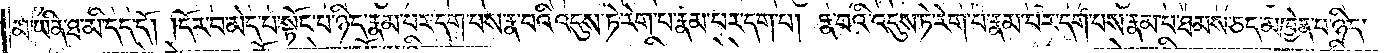མ་ཡིན་ཐ་མི་དད་དོ། །དོར་བ་མེད་པ་སྟོང་པ་ཉིད་རྣམ་པར་དག་པས་རྣ་བའི་འདུས་ཏེ་རེག་པ་རྣམ་པར་དག་པ། རྣ་བའི་འདུས་ཏེ་རེག་པ་རྣམ་པར་དག་པས་རྣམ་པ་ཐམས་ཅད་མཁྱེན་པ་ཉིད་
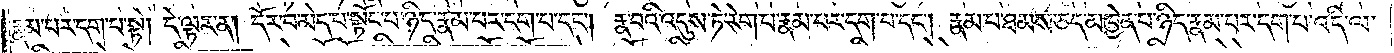རྣམ་པར་དག་པ་སྟེ། དེ་ལྟར་ན། དོར་བ་མེད་པ་སྟོང་པ་ཉིད་རྣམ་པར་དག་པ་དང༌། རྣ་བའི་འདུས་ཏེ་རེག་པ་རྣམ་པར་དག་པ་དང༌། རྣམ་པ་ཐམས་ཅད་མཁྱེན་པ་ཉིད་རྣམ་པར་དག་པ་འདི་ལ་
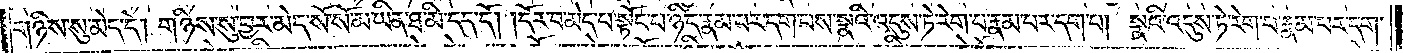གཉིས་སུ་མེད་དེ། གཉིས་སུ་བྱར་མེད་སོ་སོ་མ་ཡིན་ཐ་མི་དད་དོ། །དོར་བ་མེད་པ་སྟོང་པ་ཉིད་རྣམ་པར་དག་པས་སྣའི་འདུས་ཏེ་རེག་པ་རྣམ་པར་དག་པ། སྣའི་འདུས་ཏེ་རེག་པ་རྣམ་པར་དག་
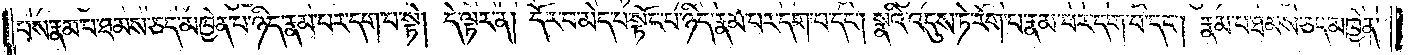པས་རྣམ་པ་ཐམས་ཅད་མཁྱེན་པ་ཉིད་རྣམ་པར་དག་པ་སྟེ། དེ་ལྟར་ན། དོར་བ་མེད་པ་སྟོང་པ་ཉིད་རྣམ་པར་དག་པ་དང༌། སྣའི་འདུས་ཏེ་རེག་པ་རྣམ་པར་དག་པ་དང༌། རྣམ་པ་ཐམས་ཅད་མཁྱེན་
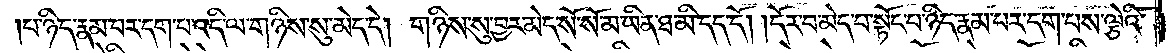པ་ཉིད་རྣམ་པར་དག་པ་འདི་ལ་གཉིས་སུ་མེད་དེ། གཉིས་སུ་བྱར་མེད་སོ་སོ་མ་ཡིན་ཐ་མི་དད་དོ། །དོར་བ་མེད་པ་སྟོང་པ་ཉིད་རྣམ་པར་དག་པས་ལྕེའི་
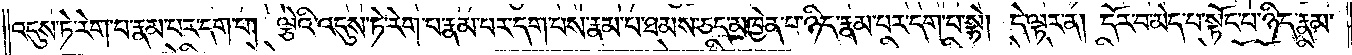འདུས་ཏེ་རེག་པ་རྣམ་པར་དག་པ། ལྕེའི་འདུས་ཏེ་རེག་པ་རྣམ་པར་དག་པས་རྣམ་པ་ཐམས་ཅད་མཁྱེན་པ་ཉིད་རྣམ་པར་དག་པ་སྟེ། དེ་ལྟར་ན། དོར་བ་མེད་པ་སྟོང་པ་ཉིད་རྣམ་
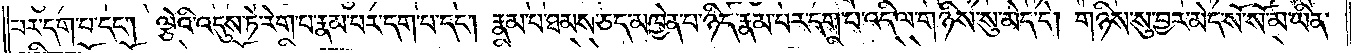པར་དག་པ་དང༌། ལྕེའི་འདུས་ཏེ་རེག་པ་རྣམ་པར་དག་པ་དང༌། རྣམ་པ་ཐམས་ཅད་མཁྱེན་པ་ཉིད་རྣམ་པར་དག་པ་འདི་ལ་གཉིས་སུ་མེད་དེ། གཉིས་སུ་བྱར་མེད་སོ་སོ་མ་ཡིན་
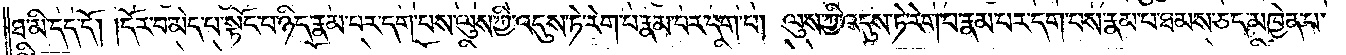ཐ་མི་དད་དོ། །དོར་བ་མེད་པ་སྟོང་པ་ཉིད་རྣམ་པར་དག་པས་ལུས་ཀྱི་འདུས་ཏེ་རེག་པ་རྣམ་པར་དག་པ། ལུས་ཀྱི་འདུས་ཏེ་རེག་པ་རྣམ་པར་དག་པས་རྣམ་པ་ཐམས་ཅད་མཁྱེན་པ་
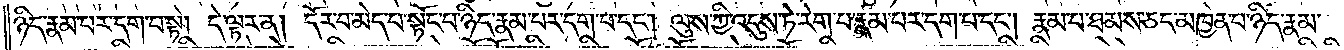ཉིད་རྣམ་པར་དག་པ་སྟེ། དེ་ལྟར་ན། དོར་བ་མེད་པ་སྟོང་པ་ཉིད་རྣམ་པར་དག་པ་དང༌། ལུས་ཀྱི་འདུས་ཏེ་རེག་པ་རྣམ་པར་དག་པ་དང༌། རྣམ་པ་ཐམས་ཅད་མཁྱེན་པ་ཉིད་རྣམ་
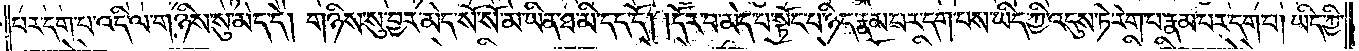པར་དག་པ་འདི་ལ་གཉིས་སུ་མེད་དེ། གཉིས་སུ་བྱར་མེད་སོ་སོ་མ་ཡིན་ཐ་མི་དད་དོ། །དོར་བ་མེད་པ་སྟོང་པ་ཉིད་རྣམ་པར་དག་པས་ཡིད་ཀྱི་འདུས་ཏེ་རེག་པ་རྣམ་པར་དག་པ། ཡིད་ཀྱི་
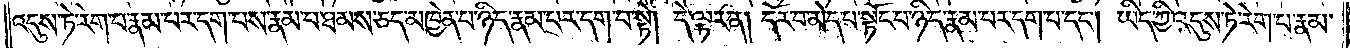འདུས་ཏེ་རེག་པ་རྣམ་པར་དག་པས་རྣམ་པ་ཐམས་ཅད་མཁྱེན་པ་ཉིད་རྣམ་པར་དག་པ་སྟེ། དེ་ལྟར་ན། དོར་བ་མེད་པ་སྟོང་པ་ཉིད་རྣམ་པར་དག་པ་དང༌། ཡིད་ཀྱི་འདུས་ཏེ་རེག་པ་རྣམ་
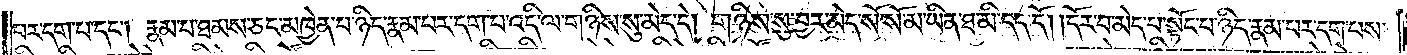པར་དག་པ་དང༌། རྣམ་པ་ཐམས་ཅད་མཁྱེན་པ་ཉིད་རྣམ་པར་དག་པ་འདི་ལ་གཉིས་སུ་མེད་དེ། གཉིས་སུ་བྱར་མེད་སོ་སོ་མ་ཡིན་ཐ་མི་དད་དོ། །དོར་བ་མེད་པ་སྟོང་པ་ཉིད་རྣམ་པར་དག་པས་
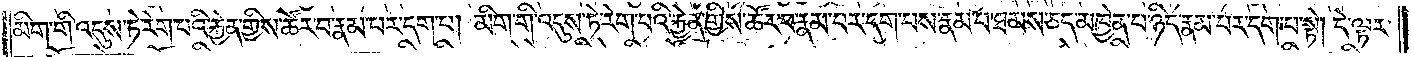མིག་གི་འདུས་ཏེ་རེག་པའི་རྐྱེན་གྱིས་ཚོར་བ་རྣམ་པར་དག་པ། མིག་གི་འདུས་ཏེ་རེག་པའི་རྐྱེན་གྱིས་ཚོར་བ་རྣམ་པར་དག་པས་རྣམ་པ་ཐམས་ཅད་མཁྱེན་པ་ཉིད་རྣམ་པར་དག་པ་སྟེ། དེ་ལྟར་
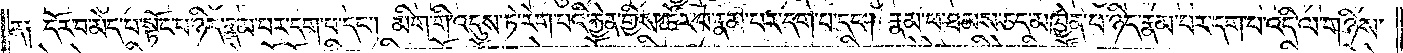ན༑ དོར་བ་མེད་པ་སྟོང་པ་ཉིད་རྣམ་པར་དག་པ་དང༌། མིག་གི་འདུས་ཏེ་རེག་པའི་རྐྱེན་གྱིས་ཚོར་བ་རྣམ་པར་དག་པ་དང༌། རྣམ་པ་ཐམས་ཅད་མཁྱེན་པ་ཉིད་རྣམ་པར་དག་པ་འདི་ལ་གཉིས་
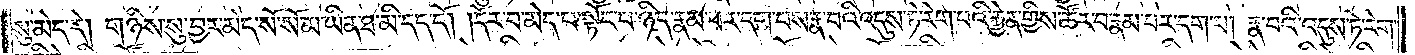སུ་མེད་དེ། གཉིས་སུ་བྱར་མེད་སོ་སོ་མ་ཡིན་ཐ་མི་དད་དོ། །དོར་བ་མེད་པ་སྟོང་པ་ཉིད་རྣམ་པར་དག་པས་རྣ་བའི་འདུས་ཏེ་རེག་པའི་རྐྱེན་གྱིས་ཚོར་བ་རྣམ་པར་དག་པ། རྣ་བའི་འདུས་ཏེ་རེག་
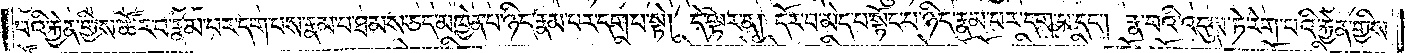པའི་རྐྱེན་གྱིས་ཚོར་བ་རྣམ་པར་དག་པས་རྣམ་པ་ཐམས་ཅད་མཁྱེན་པ་ཉིད་རྣམ་པར་དག་པ་སྟེ། དེ་ལྟར་ན། དོར་བ་མེད་པ་སྟོང་པ་ཉིད་རྣམ་པར་དག་པ་དང༌། རྣ་བའི་འདུས་ཏེ་རེག་པའི་རྐྱེན་གྱིས་
